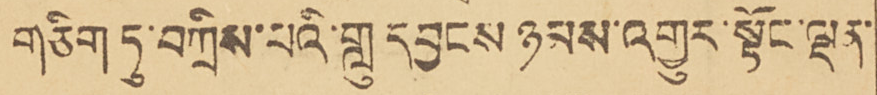གཅིག ཏུ་བཀྲིས་པའི་གླུ དབྱངས ཉམས་འགྱུར་སྟོང་ལྡན་
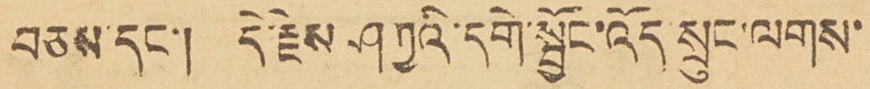བཅས་དང་། དེ་རྗེས ཤཀྱའི་དགེ་སྦྱོང་འོད་སྲུང་ལགས་
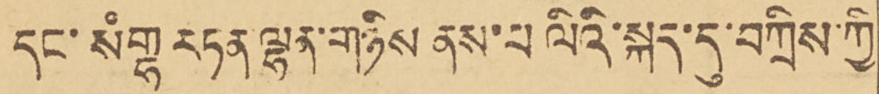དང་སཾགྷ རཏན ལྷན་གཉིས ནས་པ ལིའི་སྐད་དུ་བཀྲིས་ཀྱི
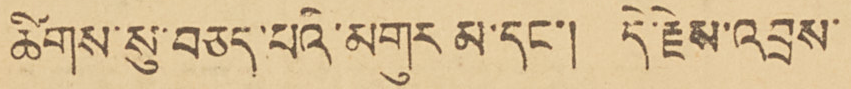ཚིགས་སུ་བཅད་པའི་མགུར མ་དང་། དེ་རྗེས་འབྲས་
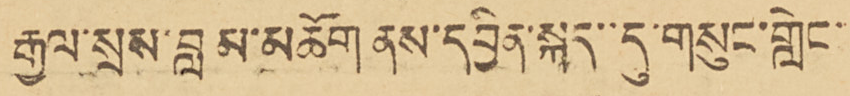རྒྱལ་སྲས་བླ མ་མཆོག ནས་དབྱིན་སྐད་དུ་གསུང་གླེང་
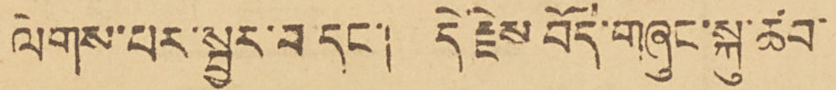ལེགས་པར་སྦྱར་བ དང་། དེ རྗེས བོད་གཞུང་སྐུ་ཚབ་
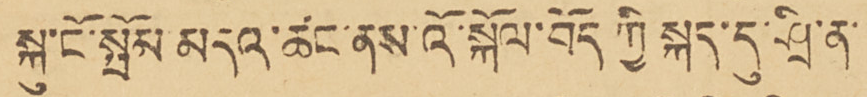སྐུ་ངོ་སྦོམ་མདའ་ཚང་ནས་འོ་སྐོལ་བོད ཀྱི སྐད་དུ་ཤྲི་ན་
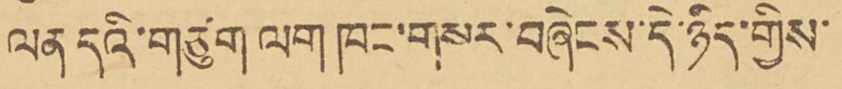ལན དུའི་གཙུག ལག ཁང་གསར་བཞེངས་དེ་ཉིད་གྱིས་
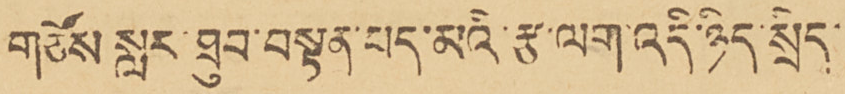གཙོས སླར་ཐུབ་བསྟན་པད་མའི་རྩ་ལག་འདི་ཉིད་སྲིད་
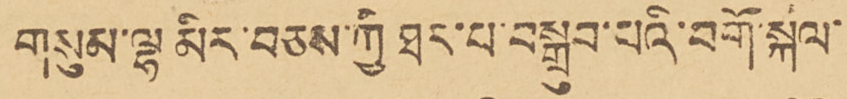གསུམ་ལྷ མིར་བཅས་ཀྱི ཐད་པ་བསྒྲུབ་པའི་བགོ་སྐལ་
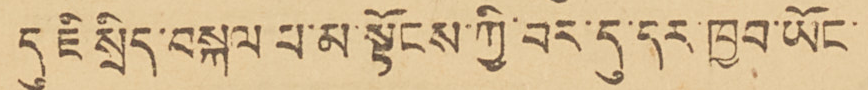དུཇི སྲིད་བསྐུལ པ་མ་སྟོངས་ཀྱི་བར་དུ་དར་ཁྱབ་ཡོང་
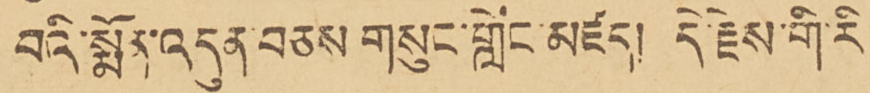བའི་སྨོན་འདུན་བཅས གསུང་གླེང་མཛད། དེ་རྗེས་གི་རི
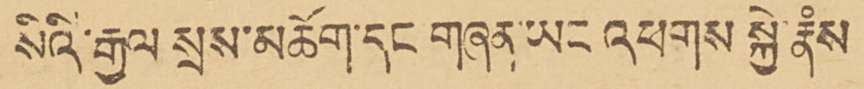སིའི་རྒྱལ སྲས་མཆོག་དང གཞན་ཡང འཕགས སྐྱེ་རྣཾས
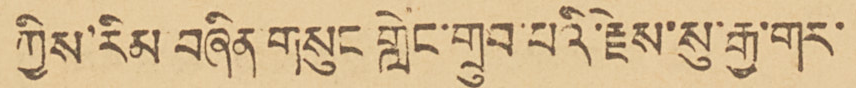ཀྱིས་རིམ བཞིན་གསུང གླེང་གྲུབ་པའི་རྗེས་སུ་རྒྱ་གར་
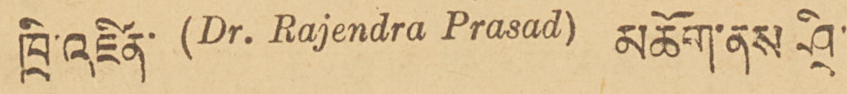ཁྲི་འཛིན་ (Dr. Rajendra Prasad) མཆོག་ནས ཤྲི་
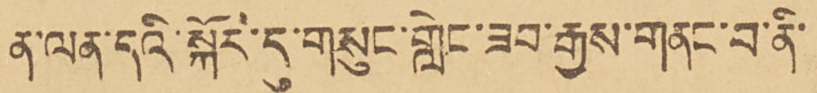ན་ལན་དའི་སྐོར་དུ་གསུང་གླེང་ཟབ་རྒྱས་གནང་བ་ནི་
